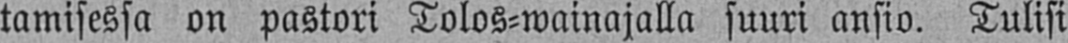tamisessa on pastori Tolos-wainajalla suuri ansio. Tulisi
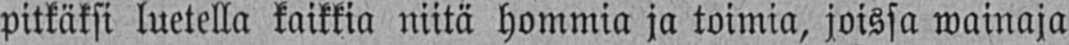pitkäksi luetella kaikkia niitä hommia ja toimia, joissa wainaja
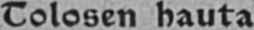Tolosen hauta.
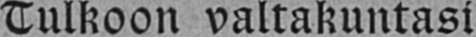Tulkoon valtakuntasi
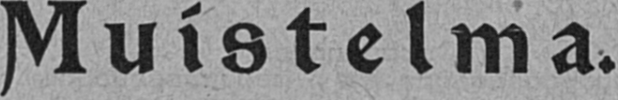Muistelma.
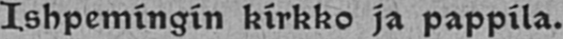Ishpemingin kirkko ja pappila.
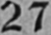27
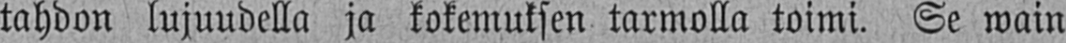tahdon lujuudella ja kokemuksen tarmolla toimi. Se wain
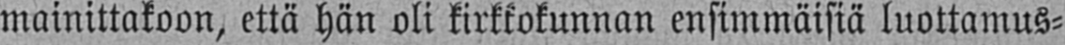mainittakoon, että hän oli kirkkokunnan ensimmäisiä luottamus-
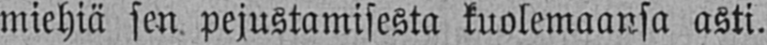miehiä sen pejustamisesta kuolemaansa asti.
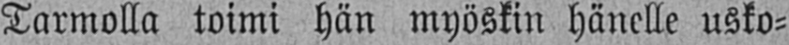Tarmolla toimi hän myöskin hänelle usko-
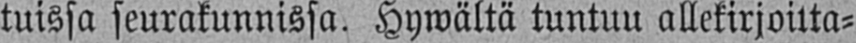tuissa seurakunnissa. Hywältä tuntuu allekirjoitta-
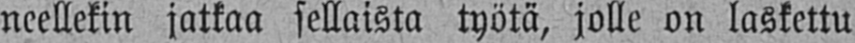neellekin jatkaa sellaista työtä, jolle on laskettu
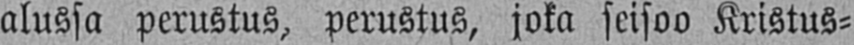alussa perustus, perustus, joka seisoo Kristus-
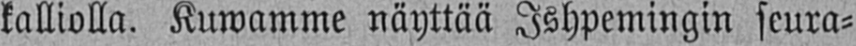kalliolla. Kuwamme näyttää Ishpemingin seura-
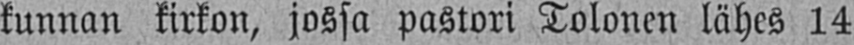kunnan kirkon, jossa pastori Tolonen lähes 14
